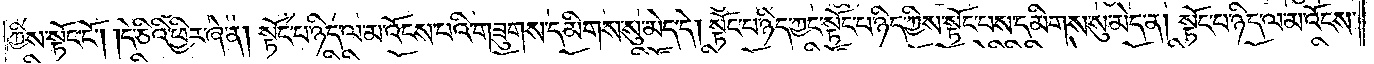ཀྱིས་སྟོང་ངོ༌། །དེ་ཅིའི་ཕྱིར་ཞེ་ན། སྟོང་པ་ཉིད་ལ་མ་འོངས་པའི་གཟུགས་དམིགས་སུ་མེད་དེ། སྟོང་པ་ཉིད་ཀྱང་སྟོང་པ་ཉིད་ཀྱིས་སྟོང་པས་དམིགས་སུ་མེད་ན། སྟོང་པ་ཉིད་ལ་མ་འོངས་
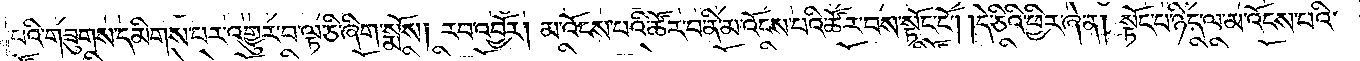པའི་གཟུགས་དམིགས་པར་འགྱུར་བ་ལྟ་ཅི་ཞིག་སྨོས། རབ་འབྱོར། མ་འོངས་པའི་ཚོར་བ་ནི་མ་འོངས་པའི་ཚོར་བས་སྟོང་ངོ༌། །དེ་ཅིའི་ཕྱིར་ཞེ་ན། སྟོང་པ་ཉིད་ལ་མ་འོངས་པའི་
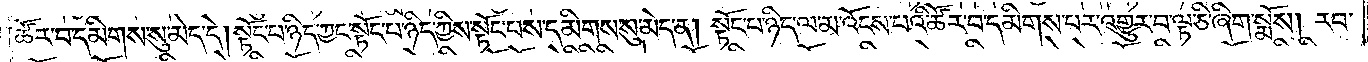ཚོར་བ་དམིགས་སུ་མེད་དེ། སྟོང་པ་ཉིད་ཀྱང་སྟོང་པ་ཉིད་ཀྱིས་སྟོང་པས་དམིགས་སུ་མེད་ན། སྟོང་པ་ཉིད་ལ་མ་འོངས་པའི་ཆོར་བ་དམིགས་པར་འགྱུར་བ་ལྟ་ཅི་ཞིག་སྨོས། རབ་
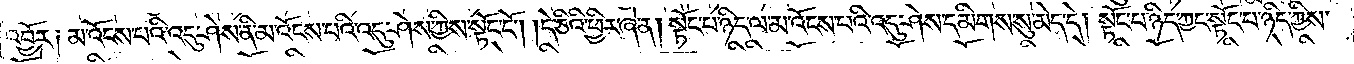འབྱོར། མ་འོངས་པའི་འདུ་ཤེས་ནི་མ་འོངས་པའི་འདུ་ཤེས་ཀྱིས་སྟོང་ངོ༌། །དེ་ཅིའི་ཕྱིར་ཞེ་ན། སྟོང་པ་ཉིད་ལ་མ་འོངས་པའི་འདུ་ཤེས་དམིགས་སུ་མེད་དེ། སྟོང་པ་ཉིད་ཀྱང་སྟོང་པ་ཉིད་ཀྱིས་
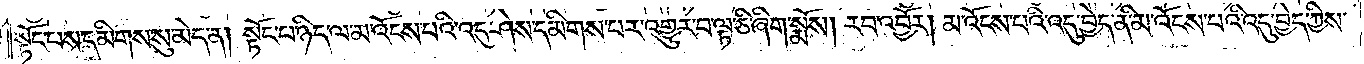སྟོང་པས་དམིགས་སུ་མེད་ན། སྟོང་པ་ཉིད་ལ་མ་འོངས་པའི་འདུ་ཤེས་དམིགས་པར་འགྱུར་བ་ལྟ་ཅི་ཞིག་སྨོས། རབ་འབྱོར། མ་འོངས་པའི་འདུ་བྱེད་ནི་མ་འོངས་པའི་འདུ་བྱེད་ཀྱིས་
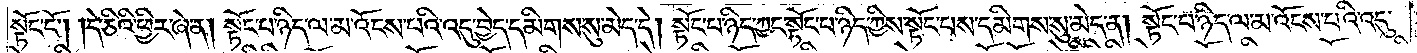སྟོང་ངོ༌། །དེ་ཅིའི་ཕྱིར་ཞེ་ན། སྟོང་པ་ཉིད་ལ་མ་འོངས་པའི་འདུ་བྱེད་དམིགས་སུ་མེད་དེ། སྟོང་པ་ཉིད་ཀྱང་སྟོང་པ་ཉིད་ཀྱིས་སྟོང་པས་དམིགས་སུ་མེད་ན། སྟོང་པ་ཉིད་ལ་མ་འོངས་པའི་འདུ་
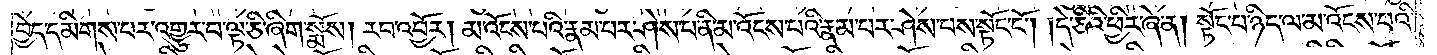བྱེད་དམིགས་པར་འགྱུར་བ་ལྟ་ཅི་ཞིག་སྨོས། རབ་འབྱོར། མ་འོངས་པའི་རྣམ་པར་ཤེས་པ་ནི་མ་འོངས་པའི་རྣམ་པར་ཤེས་པས་སྟོང་ངོ༌། །དེ་ཅིའི་ཕྱིར་ཞེ་ན། སྟོང་པ་ཉིད་ལ་མ་འོངས་པའི་
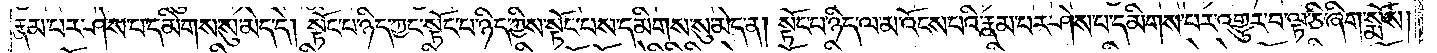རྣམ་པར་ཤེས་པ་དམིགས་སུ་མེད་དེ། སྟོང་པ་ཉིད་ཀྱང་སྟོང་པ་ཉིད་ཀྱིས་སྟོང་པས་དམིགས་སུ་མེད་ན། སྟོང་པ་ཉིད་ལ་མ་འོངས་པའི་རྣམ་པར་ཤེས་པ་དམིགས་པར་འགྱུར་བ་ལྟ་ཅི་ཞིག་སྨོས།
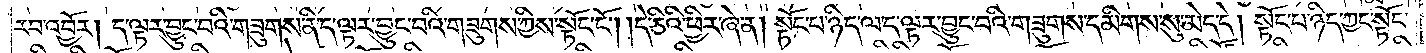རབ་འབྱོར། ད་ལྟར་བྱུང་བའི་གཟུགས་ནི་ད་ལྟར་བྱུང་བའི་གཟུགས་ཀྱིས་སྟོང་ངོ༌། །དེ་ཅིའི་ཕྱིར་ཞེ་ན། སྟོང་པ་ཉིད་ལ་ད་ལྟར་བྱུང་པའི་གཟུགས་དམིགས་སུ་མེད་དེ། སྟོང་པ་ཉིད་ཀྱང་སྟོང་
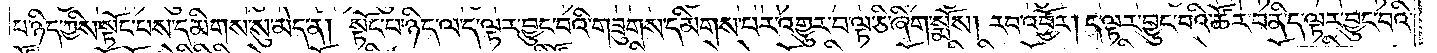པ་ཉིད་ཀྱིས་སྟོང་པས་དམིགས་སུ་མེད་ན། སྟོང་པ་ཉིད་ལ་ད་ལྟར་བྱུང་བའི་གཟུགས་དམིགས་པར་འགྱུར་བ་ལྟ་ཅི་ཞིག་སྨོས། རབ་འབྱོར། ད་ལྟར་བྱུང་བའི་ཚོར་བ་ནི་ད་ལྟར་བྱུང་བའི་
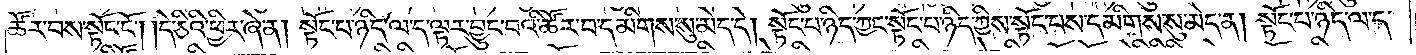ཚོར་བས་སྟོང་ངོ༌། །དེ་ཅིའི་ཕྱིར་ཞེ་ན། སྟོང་པ་ཉིད་ལ་ད་ལྟར་བྱུང་བའི་ཚོར་བ་དམིགས་སུ་མེད་དེ། སྟོང་པ་ཉིད་ཀྱང་སྟོང་པ་ཉིད་ཀྱིས་སྟོང་པས་དམིགས་སུ་མེད་ན། སྟོང་པ་ཉིད་ལ་ད་
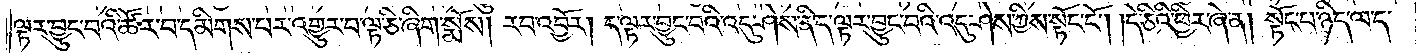ལྟར་བྱུང་བའི་ཚོར་བ་དམིགས་པར་འགྱུར་བ་ལྟ་ཅི་ཞིག་སྨོས། རབ་འབྱོར། ད་ལྟར་བྱུང་བའི་འདུ་ཤེས་ནི་ད་ལྟར་བྱུང་བའི་འདུ་ཤེས་ཀྱིས་སྟོང་ངོ༌། །དེ་ཅིའི་ཕྱིར་ཞེ་ན། སྟོང་པ་ཉིད་ལ་ད་
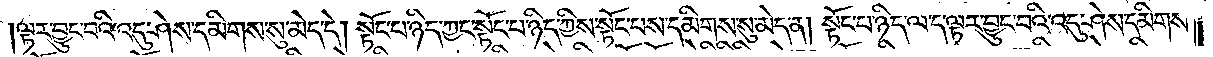ལྟར་བྱུང་བའི་འདུ་ཤེས་དམིགས་སུ་མེད་དེ། སྟོང་པ་ཉིད་ཀྱང་སྟོང་པ་ཉིད་ཀྱིས་སྟོང་པས་དམིགས་སུ་མེད་ན། སྟོང་པ་ཉིད་ལ་ད་ལྟར་བྱུང་བའི་འདུ་ཤེས་དམིགས་
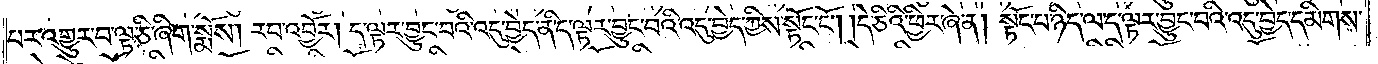པར་འགྱུར་བ་ལྟ་ཅི་ཞིག་སྨོས། རབ་འབྱོར། ད་ལྟར་བྱུང་བའི་འདུ་བྱེད་ནི་ད་ལྟར་བྱུང་བའི་འདུ་བྱེད་ཀྱིས་སྟོང་ངོ༌། །ཇི་ཅིའི་ཕྱིར་ཞེ་ན། སྟོང་པ་ཉིད་ལ་ད་ལྟར་བྱུང་བའི་འདུ་བྱེད་དམིགས་
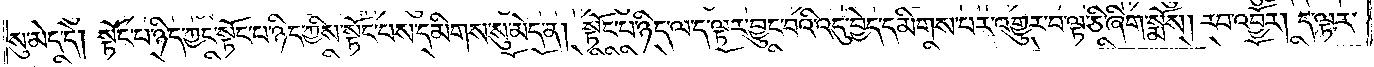སུ་མེད་དེ། སྟོང་པ་ཉིད་ཀྱང་སྟོང་པ་ཉིད་ཀྱིས་སྟོང་པས་དམིགས་སུ་མེད་ན། སྟོང་པ་ཉིད་ལ་ད་ལྟར་བྱུར་བའི་འདུ་བྱེད་དམིགས་པར་འགྱུར་བ་ལྟ་ཅི་ཞིག་སྨོས། རབ་འབྱོར། ད་ལྟར་
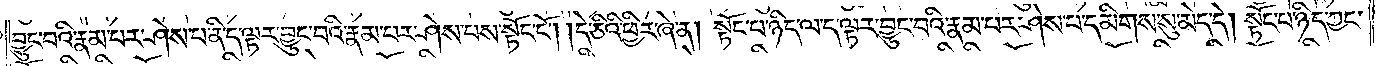བྱུང་བའི་རྣམ་པར་ཤེས་པ་ནི་ད་ལྟར་བྱུང་བའི་རྣམ་པར་ཤེས་པས་སྟོང་ངོ༌། །དེ་ཅིའི་ཕྱིར་ཞེ་ན། སྟོང་པ་ཉིད་ལ་ད་ལྟར་བྱུང་བའི་རྣམ་པར་ཤེས་པ་དམིགས་སུ་མེད་དེ། སྟོང་པ་ཉིད་ཀྱང་
